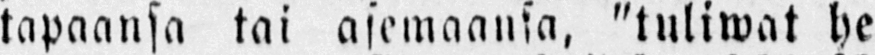tapaansa tai asemaansa, "tuliwat he
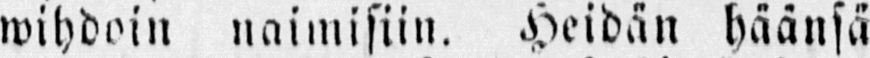wihdoin naimisiin. Heidän häänsä
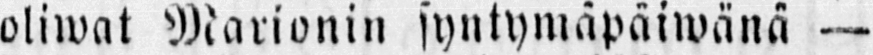oliwat Marionin syntymäpäiwänä —
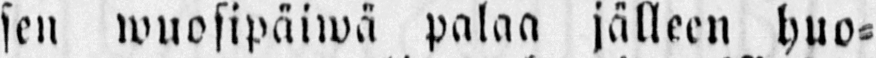sen wuosipäiwä palaa jäleen huo-
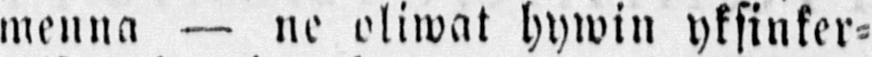menna — ne oliwat hywin yksinker-
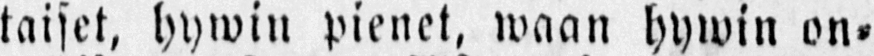taiset, hywin pienet, waan hywin on-
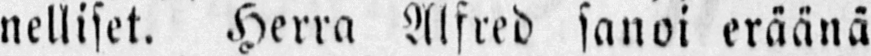nelliset. Herra Alfred sanoi eräänä
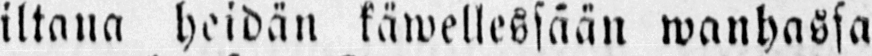iltana heidän käwellessään wanhassa
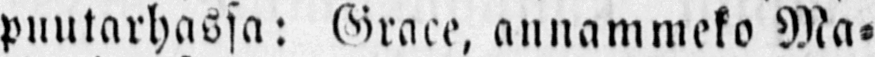puutarhassa: annammeko Ma-
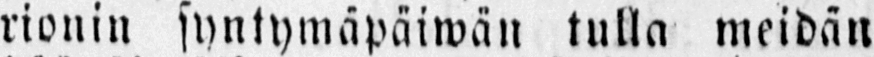rionin syntymäpäiwän tulla meidän
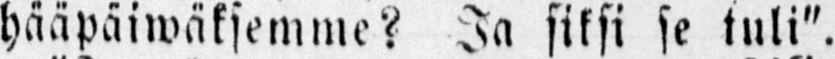hääpäiwäksemme? Ja siksi se tuli".
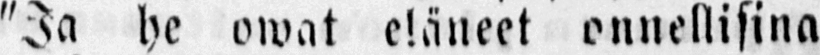"Ja he owat eläneet onnellisina
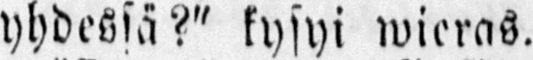yhdessä?" kysyi wieras.
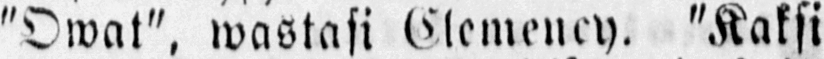"Owat", wastasi Clemeney. "Kaksi
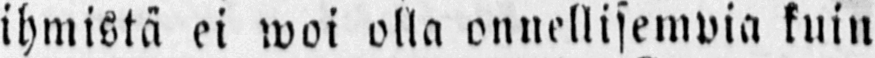ihmistä ei woi olla onnellisempia kuin
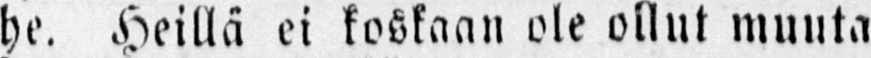he. Heillä ei koskaan ole ollut muuta
